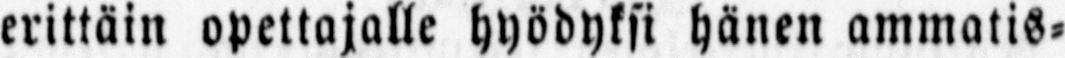erittäin opettajalle hyödyksi hänen ammatis-
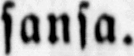sansa.
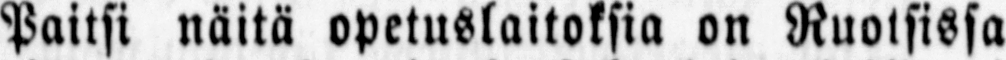Paitsi näitä opetuslaitoksia on Ruotsissa
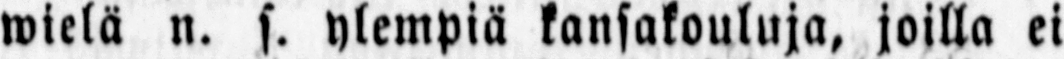wielä n. s. ylempiä kansakouluja, joilla ei
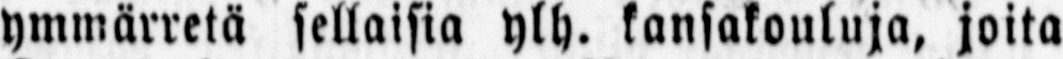ymmärretä sellaisia ylh. kansakouluja, joita
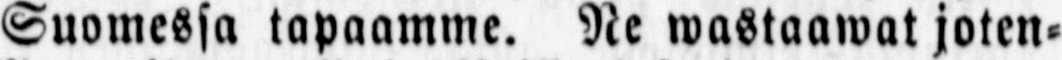Suomessa tapaamme. Ne wastaawat joten-
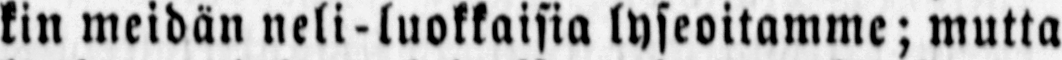kin meidän neli-luokkaisia lyseoitamme; mutta
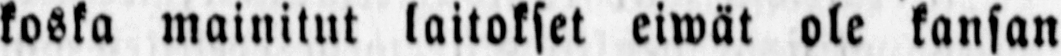koska mainitut laitokset eiwät ole kansan
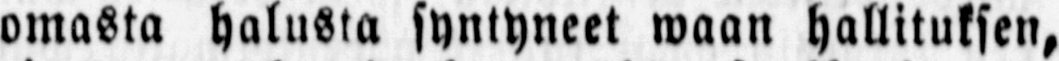omasta halusta syntyneet waan hallituksen,
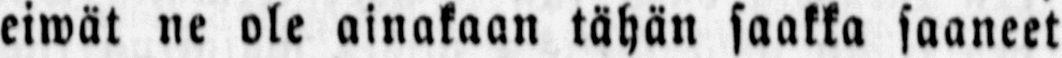eiwät ne ole ainakaan tähän saakka saaneet
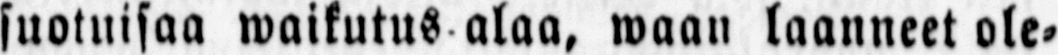suotuisaa waikutus alaa, waan laanneet ole-
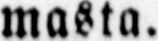masta.
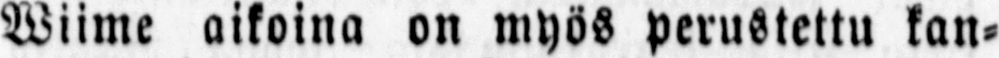Wiime aikoina on myös perustettu kan-
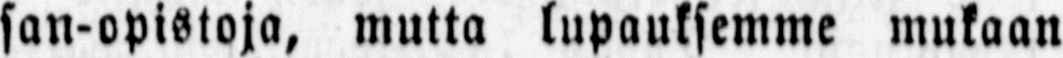san-opistoja, mutta lupauksemme mukaan
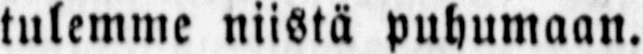tulemme niistä puhumaan.
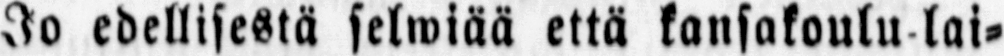Jo edellisestä selwiää että kansakoulu lai-
